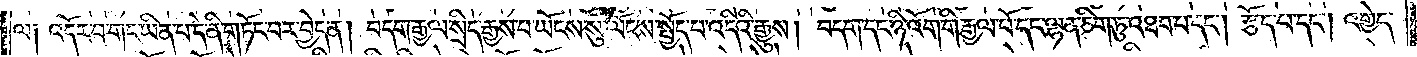ལ། འདོར་བ་གང་ཡིན་པ་དེ་ནི་གཏོང་བར་བྱེད་ན། བདག་རྒྱལ་སྲིད་རྒྱས་པ་ཡོངས་སུ་ལོངས་སྤྱོད་པ་འདིའི་རྒྱུས། བདག་དང་ཉི་འོག་གི་རྒྱལ་པོ་དང་ལྷན་ཅིག་ཏུ་འཐབ་པ་དང༌། རྩོད་པ་དང༌། འགྱེད་
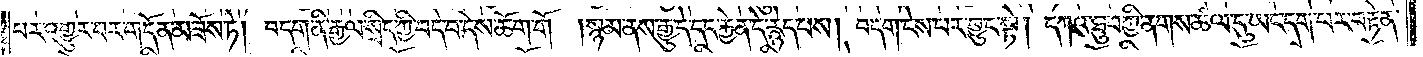པར་འགྱུར་བར་གདོན་མ་ཟོས་ཏེ། བདག་ནི་རྒྱལ་སྲིད་ཀྱི་བདེ་བ་དེས་ཆོག་གོ །སྙམ་ནས་རྒྱུ་དེ་དང་རྐྱེན་དེ་རྙེད་པས། བདག་ངེས་པར་བྱུང་སྟེ། དཀའ་ཐུབ་ཀྱི་ནགས་ཚལ་དུ་ཡང་དག་པར་བརྟེན་
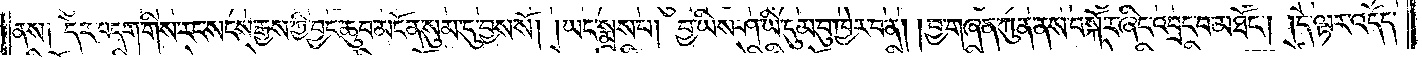ནས། དེར་བདག་གིས་རང་སངས་རྒྱས་ཀྱི་བྱང་ཆུབ་མངོན་སུམ་དུ་བྱས་སོ། །ཡང་སྨྲས་པ། བྱ་ཡིས་ཤ་ཡི་དུམ་བུ་ཁྱེར་བ་ན། །བྱ་གཞན་ཀུན་ནས་བསྐོར་ཞིང་འབྲང་བ་མཐོང༌། །དེ་ལྟར་འདོད་
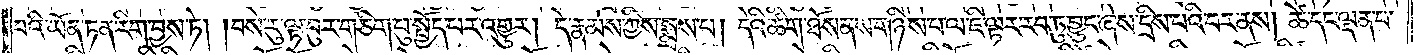པའི་ཡོན་ཏན་རིག་བྱས་ཏེ། །བསེ་རུ་ལྟ་བུར་གཅིག་པུ་སྤྱོད་པར་འགྱུར། དེ་རྣམས་ཀྱིས་སྨྲས་པ། དེའི་ཚིག་ཐོས་ནས་གཉིས་པ་ལ་ཇི་ལྟར་རབ་ཏུ་བྱུང་ཞེས་དྲིས་པའི་བར་ནས། ཚེ་དང་ལྡན་པ་
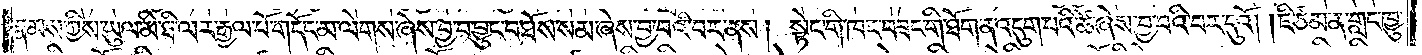རྣམས་ཀྱིས་ཡུལ་མི་ཐི་ལར་རྒྱལ་པོ་གདོང་མ་ལེགས་ཞེས་བྱ་བ་བྱུང་བ་ཐོས་སམ་ཞེས་བྱ་བའི་བར་ནས། སྟེང་གི་ཁང་བཟང་གི་ཐོག་ན་འདུག་པའི་ཚེ་ཞེས་བྱ་བའི་བར་དུའོ། །ཇི་ཙམ་ན་གླང་ཁྱུ་
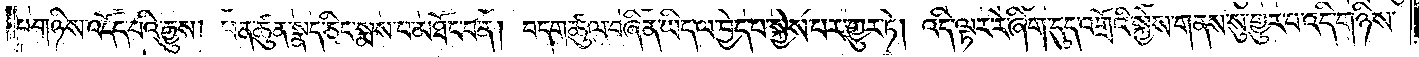པ་གཉིས་འདོད་པའི་རྒྱུས། ཕན་ཚུན་སྣད་ཅིང་སྨས་པ་མཐོང་བ་ན། བདག་ཚུལ་བཞིན་ཡིད་ལ་བྱེད་པ་སྐྱེས་པར་གྱུར་ཏེ། འདི་ལྟར་རེ་ཞིག་དུད་འགྲོའི་སྐྱེས་གནས་སུ་གྱུར་པ་འདི་གཉིས་
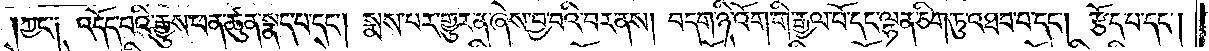ཀྱང༌། འདོད་པའི་རྒྱུས་ཕན་ཚུན་སྣད་པ་དང༌། སྨས་པར་གྱུར་ན་ཞེས་བྱ་བའི་བར་ནས། བདག་ཉི་འོག་གི་རྒྱལ་པོ་དང་ལྷན་ཅིག་ཏུ་འཐབ་པ་དང༌། རྩོད་པ་དང༌།
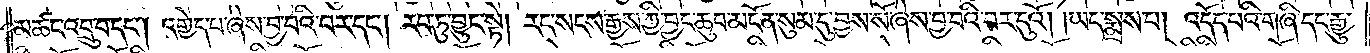མཚང་འབྲུ་བ་དང༌། འགྱེད་པ་ཞེས་བྱ་བའི་བར་དང༌། རབ་ཏུ་བྱུང་སྟེ། རང་སངས་རྒྱས་ཀྱི་བྱང་ཆུབ་མངོན་སུམ་དུ་བྱས་སོ་ཞེས་བྱ་བའི་བར་དུའོ། །ཡང་སྨྲས་པ། འདོད་པའི་གཞི་དང་རྒྱུ་
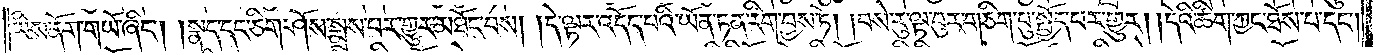ཡིས་ནོག་གཡོ་ཞིང༌། །སྣད་དང་ཅིག་ཤོས་སྨྲས་པར་གྱུར་མཐོང་བས། །དེ་ལྟར་འདོད་པའི་ཡོན་ཏན་རིག་བྱས་ཏེ། །བསེ་རུ་ལྟ་བུར་གཅིག་བུ་སྤྱོད་པར་གྱུར། །དེའི་ཚིག་ཀྱང་ཐོས་པ་དང༌།
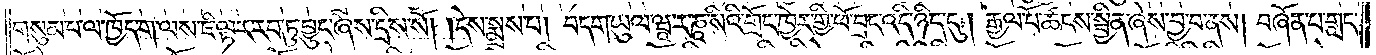གསུམ་པ་ལ་ཁྱོད་ག་ལས་ཇི་ལྟར་རབ་ཏུ་བྱུང་ཞེས་དྲིས་སོ། །དེས་སྨྲས་པ། བདག་ཡུལ་ཝཱ་ར་ཎཱ་སིའི་གྲོང་ཁྱེར་གྱི་ཕོ་བྲང་འདི་ཉིད་དུ། རྒྱལ་པོ་ཚངས་སྦྱིན་ཞེས་བྱ་བ་ནས། བཞོན་པ་གླང་
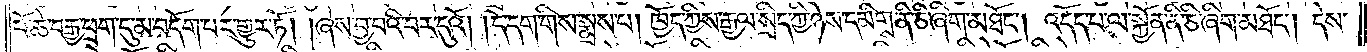པོ་ཆེ་བརྒྱ་ཕྲག་དུ་མ་བདོག་པར་གྱུར་ཏོ། །ཞེས་བྱ་བའི་བར་དུའོ། །དེ་དག་གིས་སྨྲས་པ། ཁྱོད་ཀྱིས་རྒྱལ་སྲིད་ཀྱི་ཉེས་དམིགས་ནི་ཅི་ཞིག་མཐོང༌། འདོད་པ་ལ་སྐྱོན་ནི་ཅི་ཞིག་མཐོང༌། དེས་
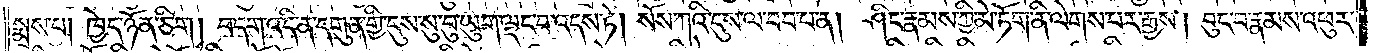སྨྲས་པ། ཁྱེད་ཉོན་ཅིག །བདག་འདི་ན་དགུན་གྱི་དུས་སུ་བུ་ཡུག་ལྡང་བ་འདས་ཏེ། སོས་ཀའི་དུས་ལ་བབ་པ་ན། ཤིང་རྣམས་ཀྱི་མེ་ཏོག་ནི་ལེགས་པར་རྒྱས། བུང་པ་རྣམས་འཕུར་
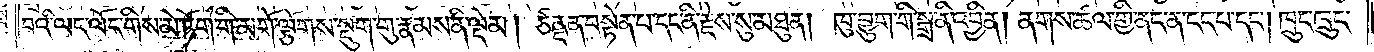བའི་ལང་ལོང་གིས་མེ་ཏོག་གི་མགོ་ལྕོགས་སྡུག་གུ་རྣམས་ནི་ལྡེམ། ཙནྡན་བསྟེན་པ་དང་ནི་རྗེས་སུ་མཐུན། ཁུ་བྱུག་གི་སྒྲ་ནི་འབྱིན། ནགས་ཚལ་གྱི་ནང་ན་ངང་པ་དང༌། ཁྲུང་ཁྲུང་
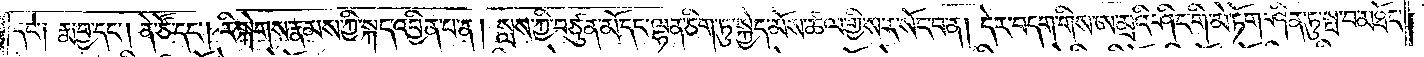དང༌། རྨ་བྱ་དང༌། ནེ་ཙོ་དང༌། རི་སྐེགས་རྣམས་ཀྱི་སྐད་འབྱིན་པ་ན། སླས་ཀྱི་བཙུན་མོ་དང་ལྷན་ཅིག་ཏུ་སྐྱེད་མོས་ཚལ་གྱི་སར་སོང་བ་ན། དེར་བདག་གིས་ཨ་མྲའི་ཤིང་གི་མེ་ཏོག་ཤིན་ཏུ་སྤ་བ་མཐོང་
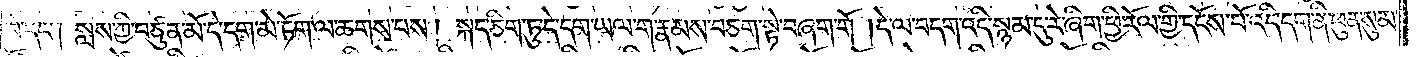པ་དང༌། སླས་ཀྱི་བཙུན་མོ་དེ་དག་མེ་ཏོག་ལ་ཆགས་པས། སྐད་ཅིག་ཏུ་དེ་དག་ཡལ་ག་རྣམས་བཅག་སྟེ་བཞག་གོ། །དེ་ལ་བདག་འདི་སྙམ་དུ་རེ་ཞིག་ཕྱི་རོལ་གྱི་དངོས་པོ་འདི་དག་ནི་ཕུན་སུམ་
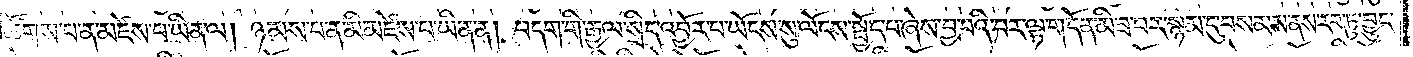ཚོགས་པ་ན་མཛེས་པ་ཡིན་ལ། ཉམས་པ་ན་མི་མཛེས་པ་ཡིན་ན། བདག་གི་རྒྱལ་སྲིད་འབྱོར་པ་ཡོངས་སུ་ལོངས་སྤྱོད་པ་ཞེས་བྱ་བའི་བར་ལྟ་གདོན་མི་ཟ་བར་སྙམ་དུ་བསམས་ནས་རབ་ཏུ་བྱུང་
